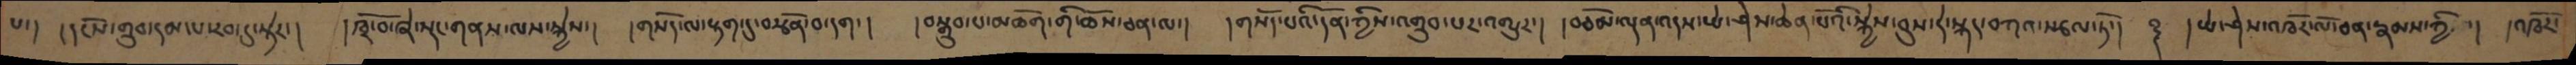པ་།  །དངོས་གྲུབ་དམ་པ་རབ་དུ་སྟེར་།  །ཁྲོ་བོ་ཞེ་སྡང་གནས་ལས་སྐྱེས་།  །གསོད་ལ་རྟག་དུ་བརྩོན་བ་དག་།  །བསྒྲུབ་པ་མཆོག་གི་ཆོས་ཅན་ལ་།  །གསོད་པའི་དོན་ཀྱིས་འགྲུབ་པར་འགྱུར་།  །བཅོམ་ལྡན་འདས་ཡེ་ཤེས་ཆེན་པོའི་སྐྱེས་བུས་དེ་སྐད་བཀའ་སྩལ་ཏོ་།   ༈  །ཡེ་ཤེས་འཁོར་ལོ་ཅན་རྣམས་ཀྱི་།  །འཁོར་
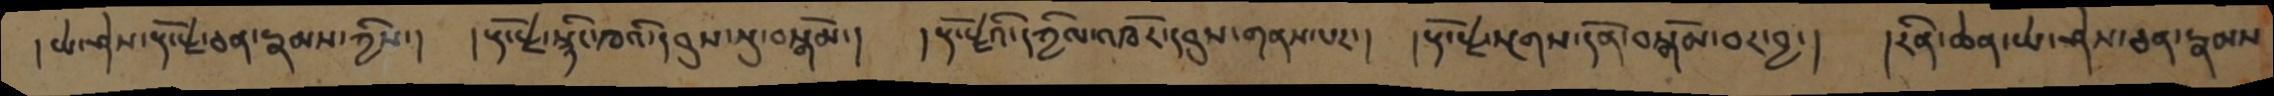།ཡེ་ཤེས་རྡོ་རྗེ་ཅན་རྣམས་ཀྱིས་།  །རྡོ་རྗེ་སྙིང་ཁའི་དབུས་སུ་བསྒོམ་།  །རྡོ་རྗེའི་དཀྱིལ་འཁོར་དབུས་གནས་པར་།  །རྡོ་རྗེ་སྔགས་དོན་བསྒོམ་པར་བྱ་།  །རིན་ཆེན་ཡེ་ཤེས་ཅན་རྣམས་
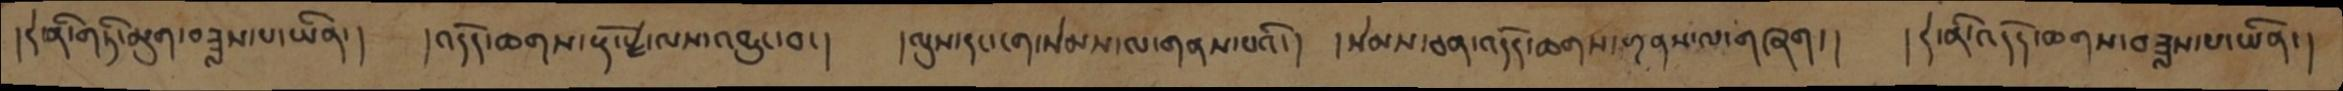།དེ་ནི་གཏི་མུག་བཟླས་པ་ཡིན་།  །འདོད་ཆགས་རྡོ་རྗེ་ལས་འབྱུང་བ་།  །ལུས་དང་ངག་སེམས་ལ་གནས་པའི་།  །སེམས་ཅན་འདོད་ཆགས་གནས་ལ་གཞག་།  །དེ་ནི་འདོད་ཆགས་བཟླས་པ་ཡིན་།
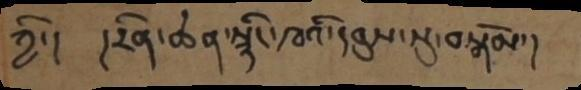ཀྱི་།  །རིན་ཆེན་སྙིང་ཁའི་དབུས་སུ་བསྒོམ་།
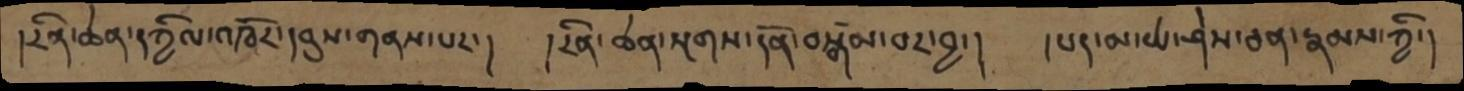།རིན་ཆེན་དཀྱིལ་འཁོར་དབུས་གནས་པར་།     །རིན་ཆེན་སྔགས་དོན་བསྒོམ་བར་བྱ་།     །པད་མ་ཡེ་ཤེས་ཅན་རྣམས་ཀྱི་།
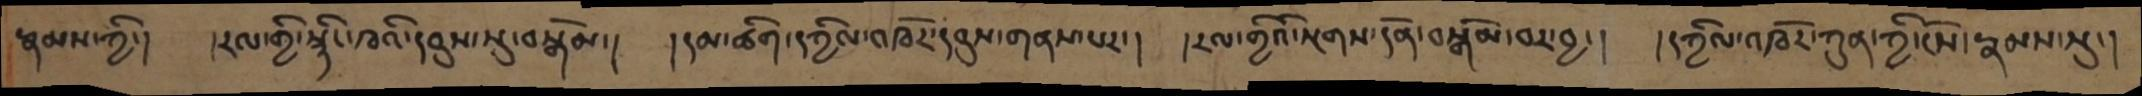རྣམས་ཀྱི་།  །རལ་གྱི་སྙིང་ཁའི་དབུས་སུ་བསྒོམ་།  །དམ་ཚིག་དཀྱིལ་འཁོར་དབུས་གནས་པར་།  །རལ་གྱིའི་སྔགས་དོན་བསྒོམ་བར་བྱ་།  །དཀྱིལ་འཁོར་ཀུན་ཀྱི་ངོས་རྣམས་སུ་།
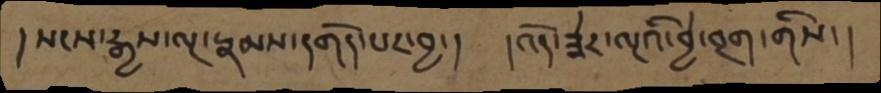།སངས་རྒྱས་ལྔ་རྣམས་དགོད་པར་བྱ་།  །འོད་ཟེར་ལྔའི་བྱེ་བྲག་གིས་།
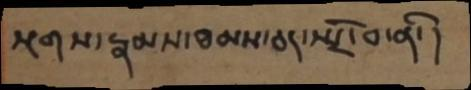སྔགས་རྣམས་ཐམས་ཅད་སྤྲོ་བ་ནི་།
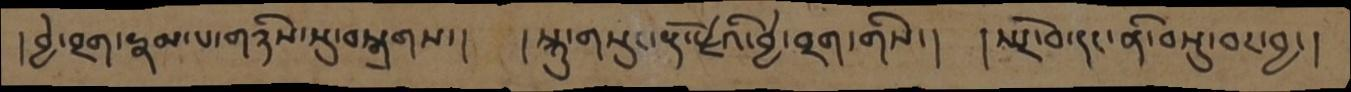།བྱེ་བྲག་རྣམ་པ་གཉིས་སུ་བསྒྲགས་།  །སྐུ་གསུང་རྡོ་རྗེའི་བྱེ་བྲག་གིས་།  །སྤྲོ་བ་དང་ནི་བསྡུ་བར་བྱ་།
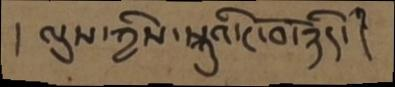། ལུས་ཀྱིས་སྐུའི་ངོ་བོ་ཉིད་།
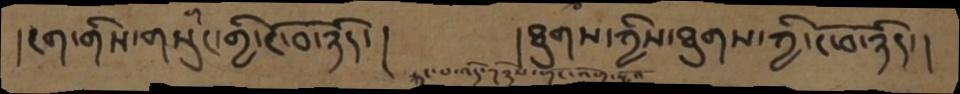།ངག་གིས་གསུང་གྱི་ངོ་བོ་ཉིད་།   །ཐུགས་ཀྱིས་ཐུགས་ཀྱི་ངོ་བོ་ཉིད་།
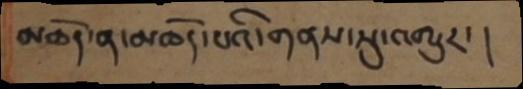མཆོད་ན་མཆོད་པའི་གནས་སུ་འགྱུར་།
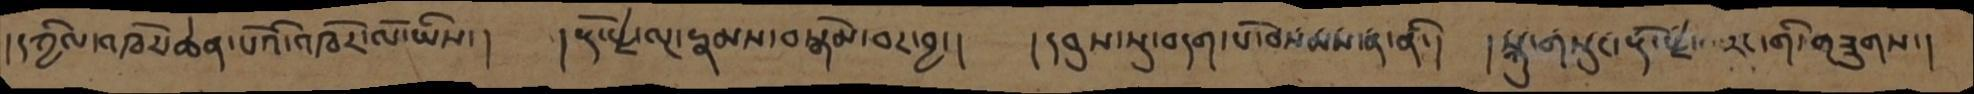།དཀྱིལ་འཁོར་ཆེན་པོའི་འཁོར་ལོ་ཡིས་།    །རྡོ་རྗེ་ལྔ་རྣམས་བསྒོམ་བར་བྱ་།     །དབུས་སུ་བདག་པོ་བསམས་ན་ནི་།    །སྐུ་གསུང་རྡོ་རྗེ་་་་རང་གི་གཟུགས་།
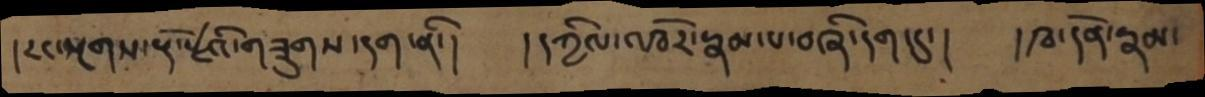།རང་སྔགས་རྡོ་རྗེའི་གཟུགས་དག་ནི་།    །དཀྱིལ་འཁོར་རྣམ་པ་བཞི་དག་དུ་།     །ཁ་དོན་རྣམ་
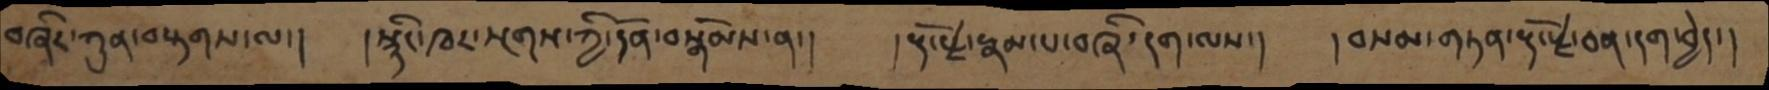བཞིར་ཀུན་བརྟགས་ལ་།    །སྙིང་ཁར་སྔགས་ཀྱི་དོན་བསྒོམས་ན་།    །རྡོ་རྗེ་རྣམ་པ་བཞི་དག་ལས་།     །བསམ་གཏན་རྡོ་རྗེ་ཅན་དག་བྱེད་།
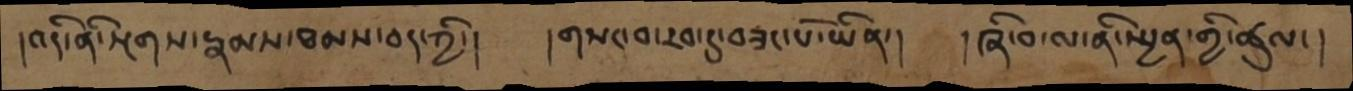།འདི་ནི་སྔགས་རྣམས་ཐམས་ཅད་ཀྱི་།  གསང་བ་རབ་ཏུ་བཟང་པོ་ཡིན་།  ཞི་བ་ལ་ནི་སྤྱན་གྱི་ཚུལ་།
